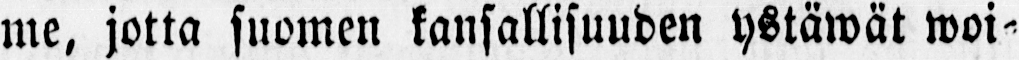me, jotta suomen kansallisuuden ystäwät woi-
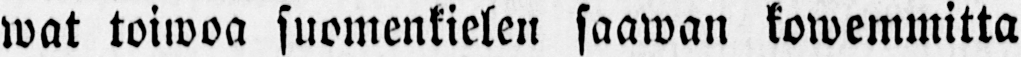wat toiwoa suomenkielen saaman kowemmitta
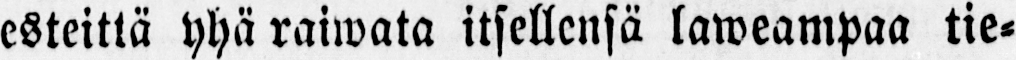esteittä yhä raiwata itsellensä laweampaa tie-
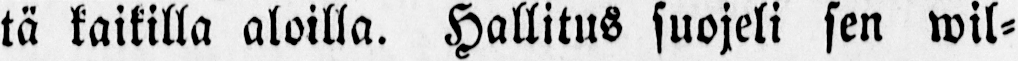tä kaikilla aloilla. Hallitus suojeli sen wil-
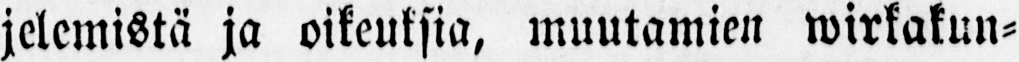jelemistä ja oikeuksia, muutamien wirkakun-
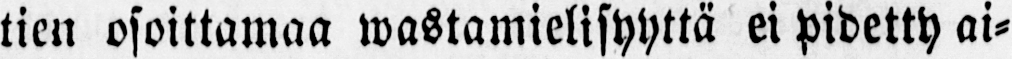tien osoittamaa wastamielisyyttä ei pidetty äi-
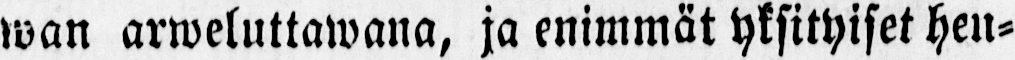wan arweluttawana, ja enimmät yksityiset hen-
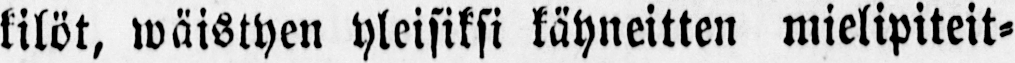kilöt, wäistyen yleisiksi käyneitten mielipiteit-
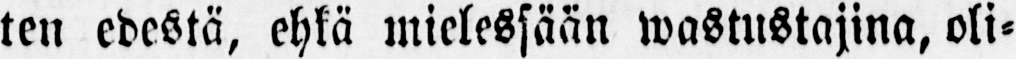ten edestä, ehkä mielessään wastustajina, oli-
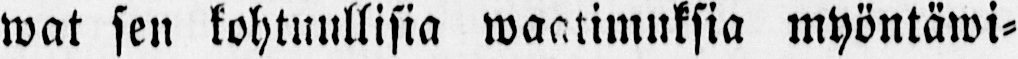wat sen kohtuullisia waatimuksia myöntäwi-
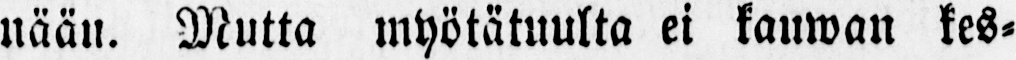nään. Mutta myötätuulta ei kauwan kes-
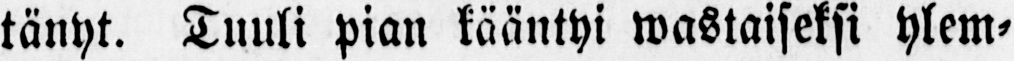tänyt. Tuuli pian kääntyi wastaiseksi ylem-
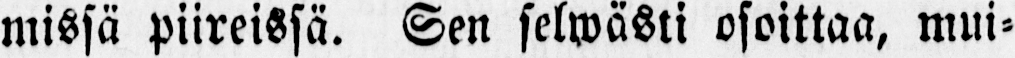missä piireissä. Sen selwästi osoittaa, mui-
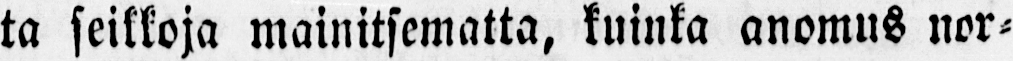ta seikkoja mainitsematta, kuinka anomus nor-
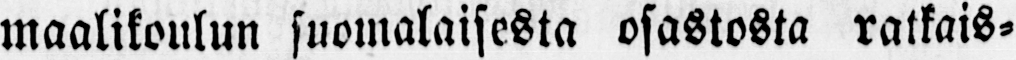maalikoulun suomalaisesta osastosta ratkais-
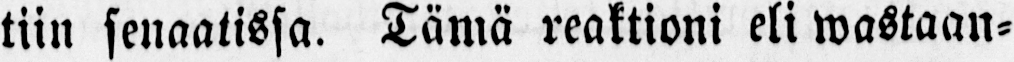tiin senaatissa. Tämä reaktioni eli wastaan-
